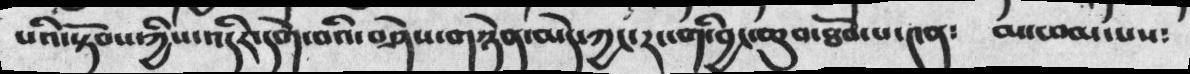པའི་སྟོབས་ཀྱིས་འདིར་དགེ་བའི་བཤེས་གཉེན་མེད་ཀྱང་རང་གི་བྱང་ཆུབ་ཐོབ་པ་༤ན༴  མ་ཕམ་པས༴
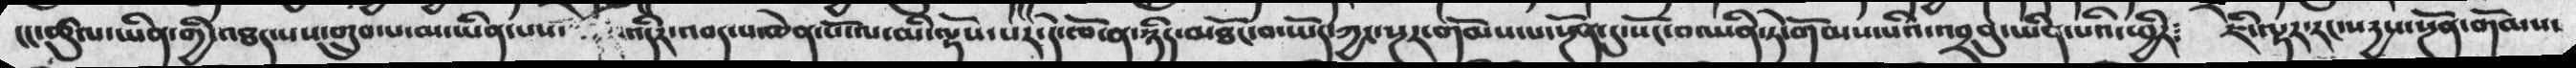ངང་ཚུལ་ཡིན་གྱི་འཐད་པས་གྲུབ་པ་མ་ཡིན་པས་ འདིར་འབད་པ་ཆེན་པོ་ལ་མི་ལྟོས་པར་དེ་ཁོ་ན་ཉིད་མཐོང་བ་ཡོད་ཀྱང་སྔར་གོམས་པ་སྔོན་དུ་སོང་བ་ཡིན་ཏེ་གོམས་པའི་འབྲབུ་ཡིན་པའི་ཕྱིར༴ ཇི་ལྟར་རང་སདྱས་སྔོན་གོམས་
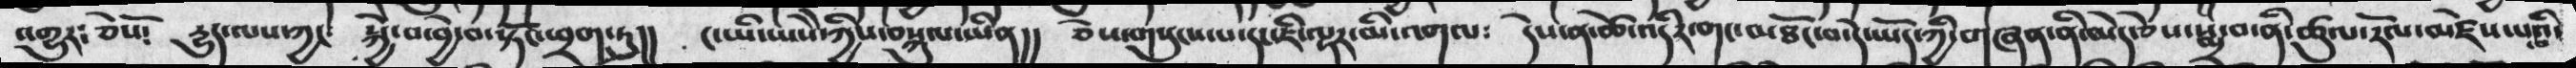འགྱུར་ཅེསོ༴ རྱུད་ལས་ཀྱང༴ སྐྱེ་བ་བྱེ་བ་སྟོང་ཕྲག་ཏུ།། ང་ཡི་ཡཻས་ཀྱིས་བསྐུལ་ཡིན།། ཅེས་གསུངས་པ་དང་ཇི་ལྟར་མི་འགལ༴ དེས་ན་ཚེ་འདིར་གང་མཐོང་བ་དེ་ཡོད་ཀྱི་གཞན་ནི་མེད་ཅེས་སྨྲ་བ་ནི་ཚུལ་རོལ་མཛེས་པའི་
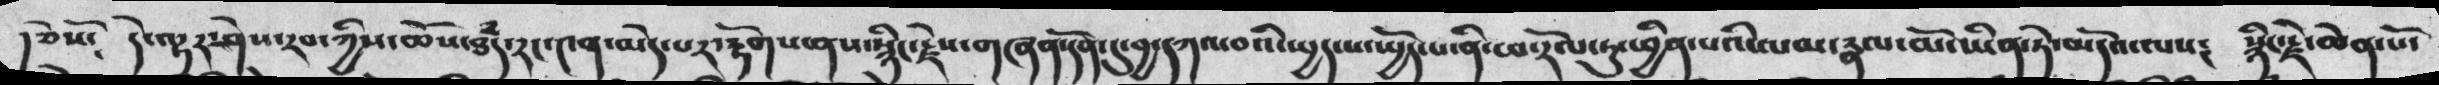།ཅེསོ༴   དེ་ལྟར་ཤེས་རབ་ཀྱིས་ཆོས་ཐྃད་རང་༤ན་མེད་པར་རྟོགས་ནས་སྙིང་རྗེས་གཞན་དོན་དུ་བྱ་དཀའ་བའི་ཡྱད་པ་ཡྱོད་པ་ནི་ཕ་རོལ་ཏུ་ཕྱིན་པའི་ལམ་རྣལ་མོ་ཡིན་ཏེ་མདོའ་ལས༴   སྙིང་རྗེ་ཆེན་པོ་
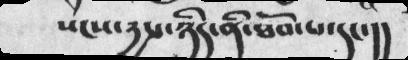སངས་དྱས་ཉིད་ནི་ཐོབ་པ་དང་།།
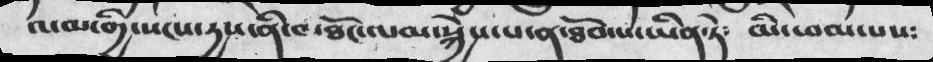ལམ་གྱི་སངས་དྱས་ནི་མཐོང་ལམ་སྐྱེས་པ་ན་ཐོབ་པ་ཡིན་ཏེ༴  མི་ཕམ་པས༴
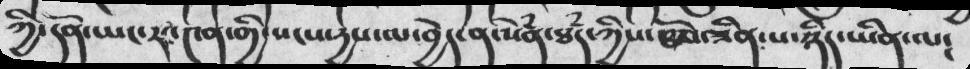ཀྱི་དོན་ཡང་རང་༤ན་གྱི་སངས་རྒྱས་མ་བྱེད་ན་སེནཾ་ཐཾད་ཀྱིས་ཐོབ་ཟིན་པ་ཉིད་ཡིན་ལ།
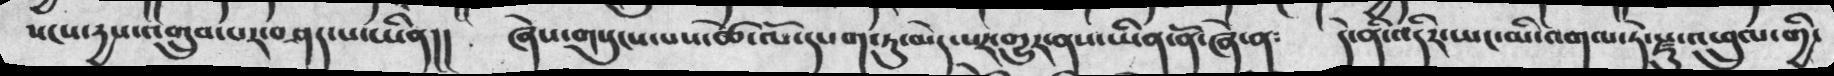སངས་རྒྱས་འགྲུབ་པར་བཤད་པ་ཡིན།།     ཞེས་གསུངས་པས་ཚེ་ལོ་དཔག་ཏུ་མེད་པར་གྱུར་ནས་ཡིན་ནོ་ཞེ་ན༴   དེ་ནི་འདིར་ཡང་མི་འགལ་ཏེ་སྫུ་འཕྲུལ་གྱི་
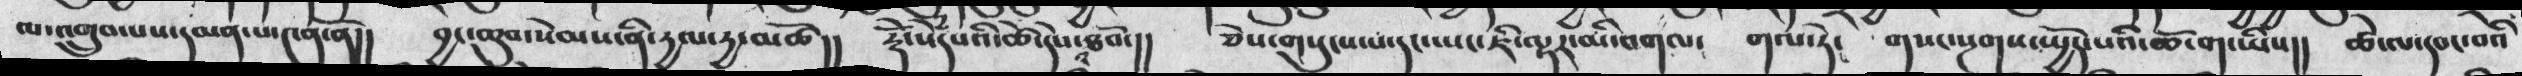མ་འགྲུབ་པས་དམན་པ་༤ན་ནོ།།   བྱང་ཆུབ་སེམས་ནི་རྒྱམ་རྒྱ་མཚོ།།   རྟོེ་སེཾདའི་ཚེ་དེས་ཐོབ།།  ཅེས་གསུངས་པ་དང་ཡང་ཇི་ལྟར་མི་འགལ༴  གལ་ཏེ་  གསང་སྔགས་ཡྱོད་པའི་ཆོ་ག་ཡིས།།  ཚེ་ལ་ས་དབང་པའི
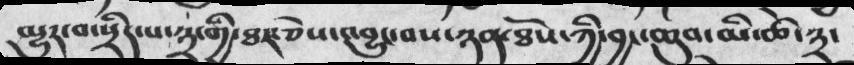མྱུར་བ་སྲིད་པ་༣་གྱི་ཐར་ཅེས་འབྱུང་བས་ཉན་ཐོས་ཀྱི་བྱང་ཆུབ་མི་ཚེ་༣་
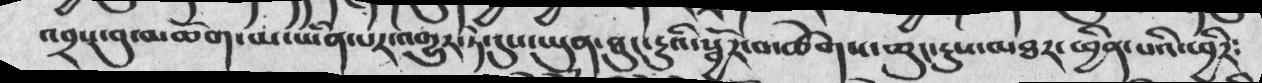འབྲས་བུ་མཆོག་མ་ཡིན་པར་འགྱུར་ཏེ་དུས་ཡུན་ཐུང་ངུའི་སྦྱོར་བ་ཚེགས་ཆུང་ངུས་མཐར་ཕྱིན་པའི་ཕྱིར༴
